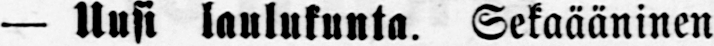— Uusi laulukunta. Sekaääninen
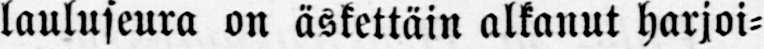lauluseura on äskettäin alkanut harjoi-
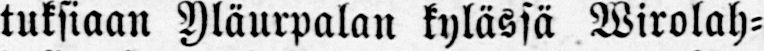tuksiaan Yläurpalan kylässä Wirolah-
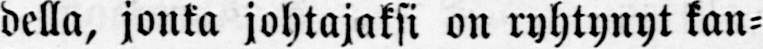della, jonka johtajaksi on ryhtynyt kan-
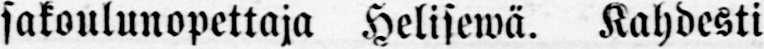sakoulunopettaja Helisewä. Kahdesti
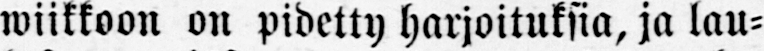wiikkoon on pidetty harjoituksia, ja lau-
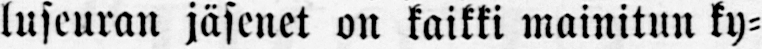luseuran jäsenet on kaikki mainitun ky-
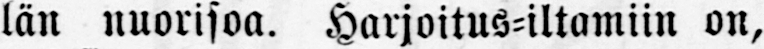län nuorisoa. Harjoitus-iltamiin on,
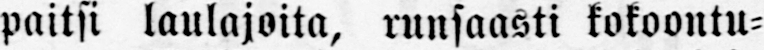paitsi laulajoita, runsaasti kokoontu-
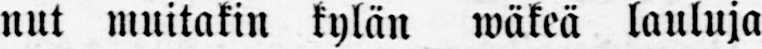nut muitakin kylän wäkeä lauluja
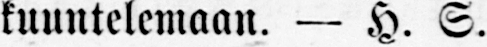kuuntelemaan. — H. S.
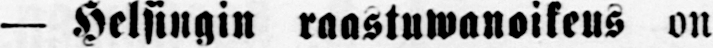— Helsingin raastuwanoikeus on
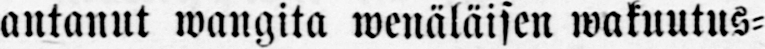antanut wangita wenäläisen wakuutus-
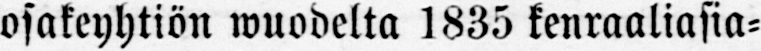osakeyhtiön wuodelta 1835 kenraaliasia-
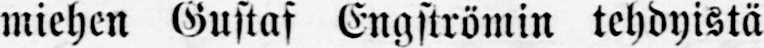miehen Gustaf Engströmin tehdyistä
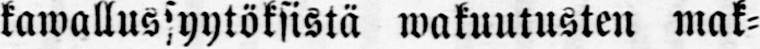kawallussyytöksistä wakuutusten mak-
